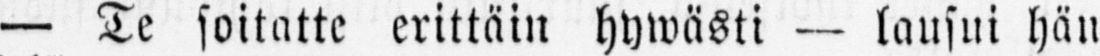— Te soitatte erittäin hywästi — lausui hän
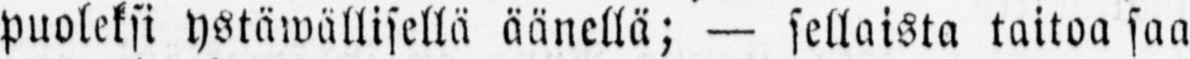puoleksi ystäwällisellä äänellä; — sellaista taitoa saa
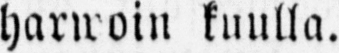Harwoin kuulla.
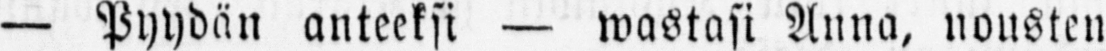— Pyydän anteeksi — wastasi Anna, nousten
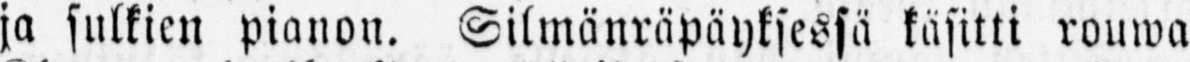ja sulkien pianon. Silmänräpäyksessä käsitti rouwa
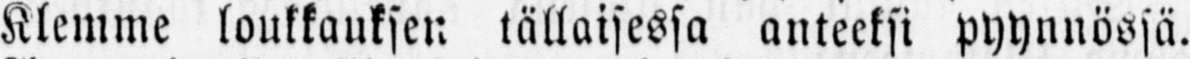Klemme loukkauksen tällaisessa anteeksi pyynnössä.
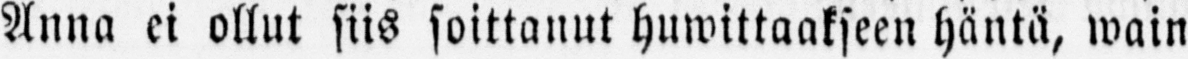Anna ei ollut siis soittanut huwittaakseen häntä, wain
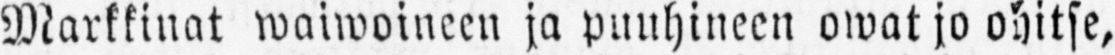Markkinat waiwoineen ja puuhineen owat jo ohitse,
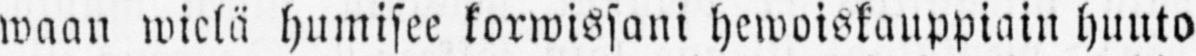waan wielä humisee korwissani hewoiskauppiain huuto
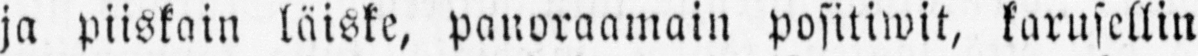ja piiskain loiske, panoraamain positiwit, karusellin
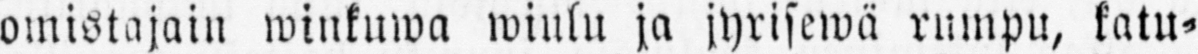omistajain winkuwa wiulu ja jyrisewä rumpu, katu-
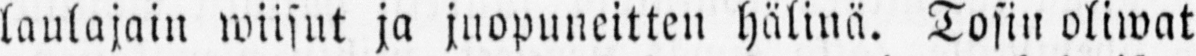laulajain wiisut ja juopuneitten hälinä. Tosin oliwat
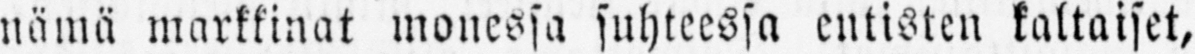nämä markkinat monessa suhteessa entisten kaltaiset,
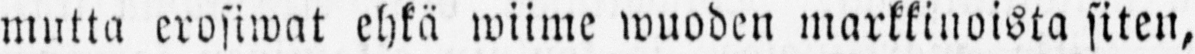mutta erosiwat ehkä wime wuoden markkinoista siten,
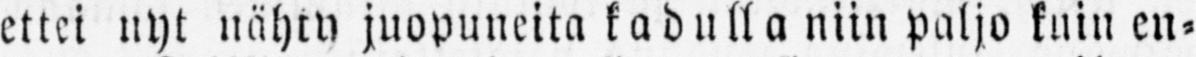ettei nyt nähty juopuneita kadulla niin paljo kuin en-
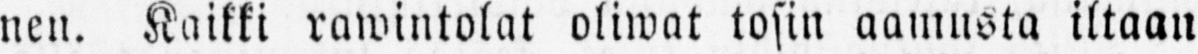nen. Kaikki rawintolat oliwat tosin aamusta iltaan
